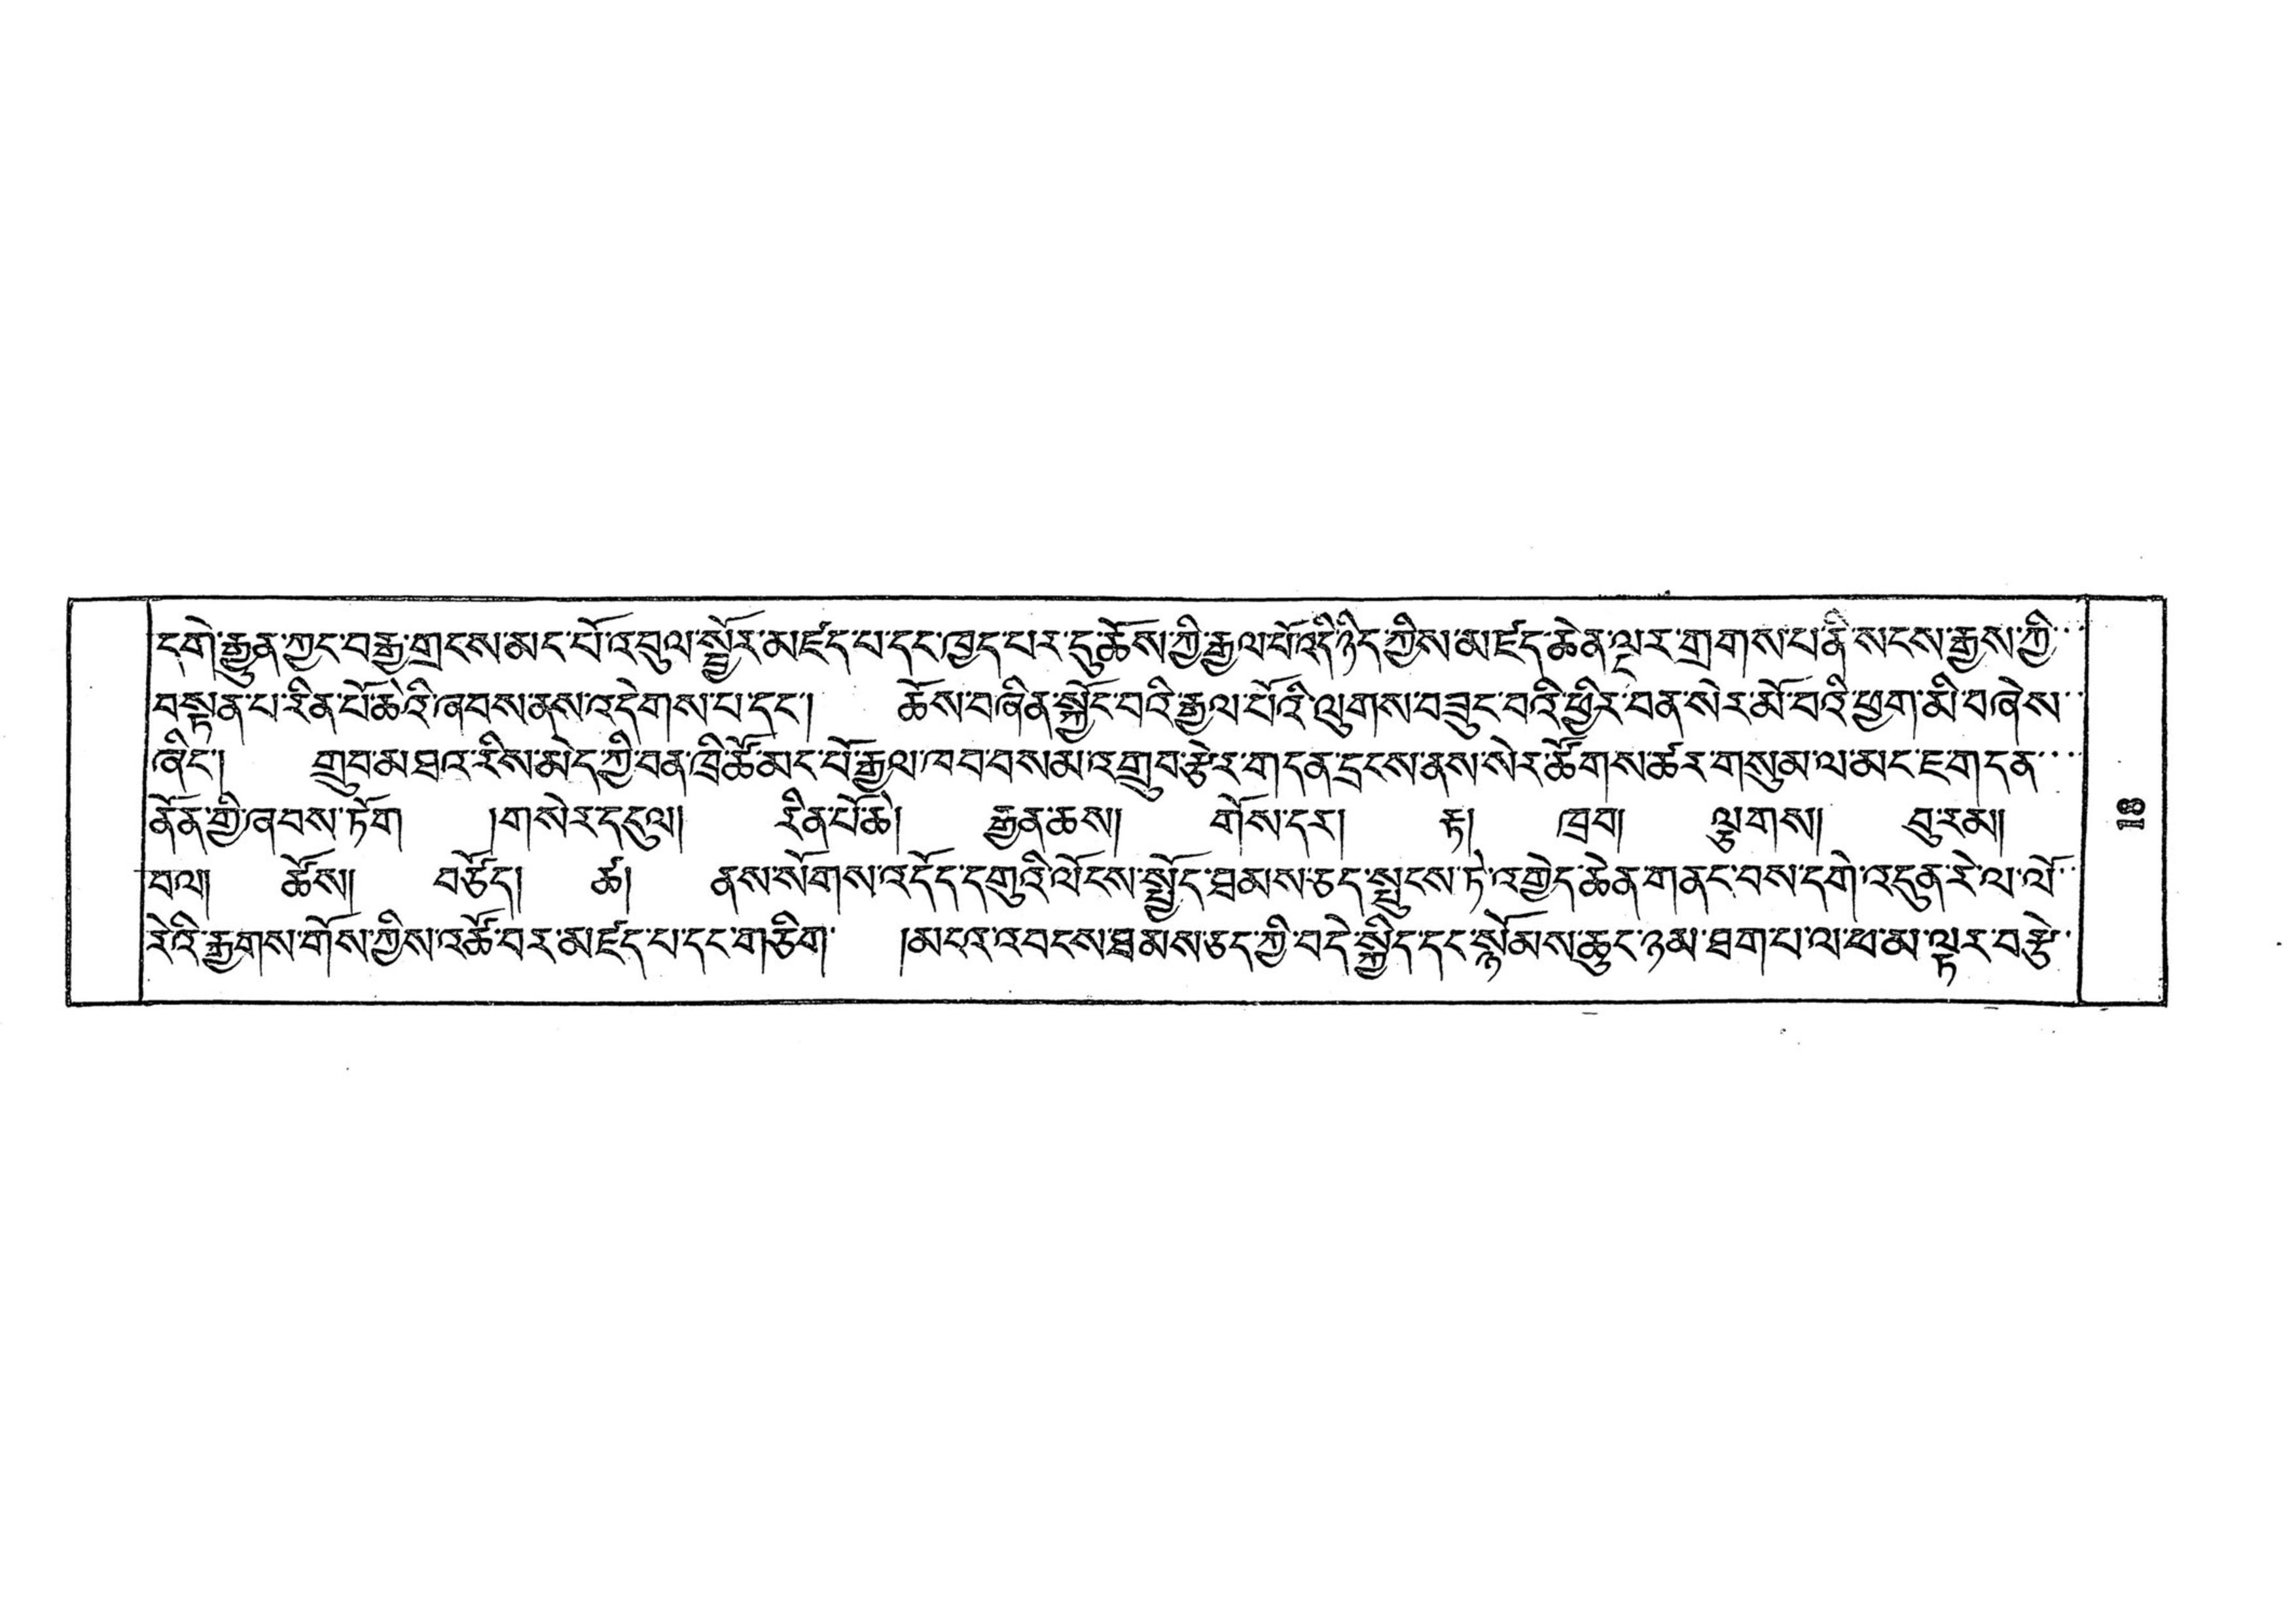དགེ་རྒྱུན་ཀྱང་བརྒྱ་གྲངས་མང་པོ་འབུལ་སྦྱོར་མཛད་པ་དང་ཁྱད་པརདུ་ཆོས་ཀྱི་རྒྱལ་པོ་འདི་ཉིད་ཀྱིས་མཛད་ཆེན་ལྔར་གྲགས་པ་ནི་སངས་རྒྱས་ཀྱི་་་
བསྟན་པ་རིན་པོཆིའི་ཞབས་ནས་འདེགས་པ་དང་། ཆོས་བཞིན་སྐྱོང་བའི་རྒྱལ་པོའི་ལུགས་བཟུང་བའི་ཕྱིར་བན་སེར་མོ་བའི་ཕྱག་མི་བཞེས་་
ཞིང་། གྲབ་མཐའ་རིས་མེད་ཀྱི་བན་ཁྲི་ཚོ་མང་པོ་རྒྱལ་ཁབ་བསམ་འགྲུབ་རྩེར་གདན་དྲངས་ནས་སེར་ཚོགས་ཚར་གསུམ་ལ་མང་ཇ་གདན་་་་་
ནོན་གྱི་ཞབས་ཏོག །གསེར་དངུལ། རིན་པཆི། རྒྱན་ཆས། གོས་དར། རྟ། ཁྲབ། ལྕགས། བུ་རམ།
བལ། ཚོས། བཙོད། ཚ། ནས་སོགས་འདོད་དགུའི་ལོངས་སྤྱོད་ཐམས་ཅད་སྤུངས་ཏི་འགྱེད་ཆེན་གནང་བས་དགེ་འདུན་རེ་ལ་ལོ་་
རེའི་རྒྱགས་གོས་ཀྱིས་འཚོ་བར་མཛད་པ་དང་གཅིག་ །མདངའ་འབངས་ཐམས་ཅད་ཀྱི་བདེ་སྐྱིད་དང་སྙོམས་ཆུང་ཉམ་ཐག་པ་ལ་ཕ་མ་ལྟར་བརྩེ་
